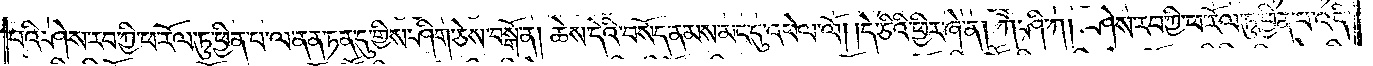པའི་ཤེས་རབ་ཀྱི་ཕ་རོལ་ཏུ་ཕྱིན་པ་ལ་ནན་ཏན་དུ་གྱིས་ཤིག་ཅེས་བསྒོ་ན། ཆེས་དེའི་བསོད་ནམས་མང་དུ་འཕེལ་ལོ། །དེ་ཅིའི་ཕྱིར་ཞེ་ན། ཀཽ་ཤི་ཀ། ཤེས་རབ་ཀྱི་ཕ་རོལ་ཏུ་ཕྱིན་པ་འདི་
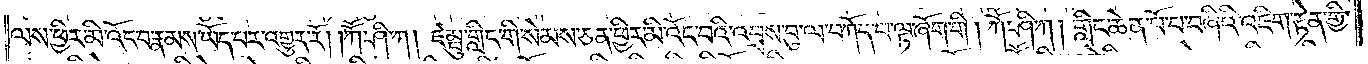ལས་ཕྱིར་མི་འོང་བ་རྣམས་ཡོད་པར་འགྱུར་རོ། །ཀཽ་ཤི་ཀ། ཛམྦུ་གླིང་གི་སེམས་ཅན་ཕྱིར་མི་འོང་བའི་འབྲས་བུ་ལ་བཀོད་པ་ལྟ་ཞོག་གི །ཀཽ་ཤི་ག །གླིང་ཆེན་པོ་པ་བཞིའི་འཇིག་རྟེན་གྱི་
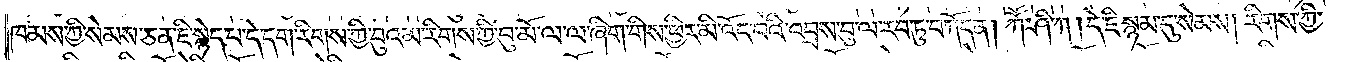ཁམས་ཀྱི་སེམས་ཅན་ཇི་སྙེད་བ་དེ་དག་རིགས་ཀྱི་བུའམ་རིགས་ཀྱི་བུ་མོ་ལ་ལ་ཞིག་གིས་ཕྱིར་མི་འོང་བའི་འབྲས་བུ་ལ་རབ་ཏུ་བཀོད་ན། ཀཽ་ཤི་ཀ། དེ་ཇི་སྙམ་དུ་སེམས། རིགས་ཀྱི་
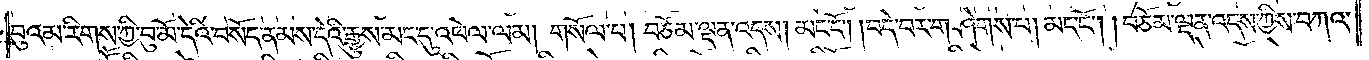བུའམ་རིགས་ཀྱི་བུ་མོ་དེའི་བསོད་ནམས་དེའི་རྒྱུས་མང་དུ་འཕེལ་ལམ། གསོལ་པ། བཅོམ་ལྡན་འདས། མང་ངོ༌། །བདེ་བར་གཤེགས་པ། མང་ངོ༌། །བཅོམ་ལྡན་འདས་ཀྱིས་བཀའ་
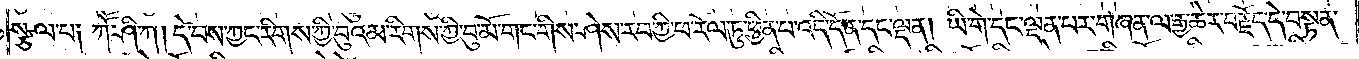སྩལ་པ༑ ཀཽ་ཤི་ཀ། དེ་བས་ཀྱང་རིགས་ཀྱི་བུའམ་རིགས་ཀྱི་བུ་མོ་གང་གིས་ཤེས་རབ་ཀྱི་ཕ་རོལ་ཏུ་ཕྱིན་པ་འདི་དོན་དང་ལྡན། ཡི་གེ་དང་ལྡན་པར་གཞན་ལ་རྒྱ་ཆེར་བརྗོད་དེ་བསྟན་
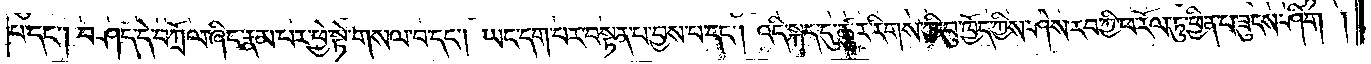པ་དང༌། བཤད་དེ་བཀྲོལ་ཞིང་རྣམ་པར་ཕྱེ་སྟེ་གསལ་བ་དང༌། ཡང་དག་པར་བསྟན་པ་བྱས་པ་དང༌། འདི་སྐད་དུ་ཚུར་རིགས་ཀྱི་བུ་ཁྱོད་ཀྱིས་ཤེས་རབ་ཀྱི་ཕ་རོལ་ཏུ་ཕྱིན་པ་ཟུངས་ཤིག །
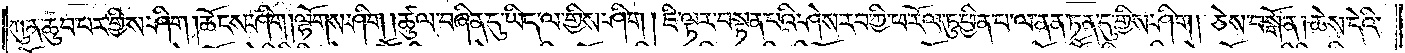ཀུན་ཆུབ་པར་གྱིས་ཤིག །ཆོངས་ཤིག །ལྷོགས་ཤིག །ཚུལ་བཞིན་དུ་ཡིད་ལ་གྱིས་ཤིག །ཇི་ལྟར་བསྟན་པའི་ཤེས་རབ་ཀྱི་ཕ་རོལ་ཏུ་ཕྱིན་པ་ལ་ནན་ཏན་དུ་གྱིས་ཤིག། ཅེས་བསྒོ་མ། ཆེས་དེའི་
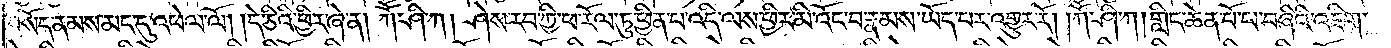བསོད་ནམས་མང་དུ་འཕེལ་ལོ། །དེ་ཅིའི་ཕྱིར་ཞེ་ན། ཀཽ་ཤི་ཀ། ཤེས་རབ་ཀྱི་ཕ་རོལ་ཏུ་ཕྱིན་པ་འདི་ལས་ཕྱིར་མི་འོང་བ་རྣམས་ཡོད་པར་འགྱུར་རོ། །ཀཽ་ཤི་ཀ། གླིང་ཆེན་པོ་པ་བཞིའི་འཇིག་
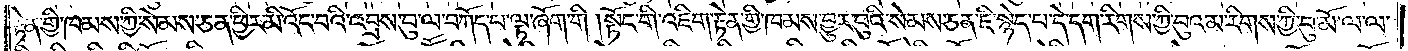རྟེན་གྱི་ཁམས་ཀྱི་སེམས་ཅན་ཕྱིར་མི་འོང་བའི་འབྲས་བུ་ལ་བཀོད་པ་ལྟ་ཞོག་གི །སྟོང་གི་འཇིག་རྟེན་གྱི་ཁམས་བྱུར་བུའི་སེམས་ཅན་ཇི་སྙེད་པ་དེ་དག་རིགས་ཀྱི་བུའམ་རིགས་ཀྱི་བུ་མོ་ལ་ལ་
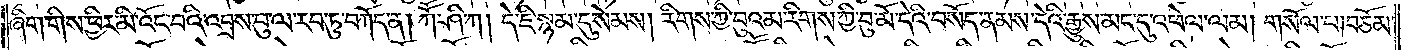ཞིག་གིས་ཕྱིར་མི་འོང་བའི་འབྲས་བུ་ལ་རབ་ཏུ་བཀོད་ན། ཀཽ་ཤི་ཀ །དེ་ཇི་སྙམ་དུ་སེམས། རིགས་ཀྱི་བུའམ་རིགས་ཀྱི་བུ་མོ་དེའི་བསོད་ནམས་དེའི་རྒྱུས་མང་དུ་འཕེལ་ལམ། གསོལ་པ། བཅོམ་
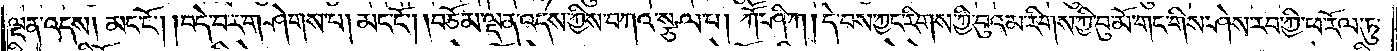ལྡན་འདས། མང་ངོ༌། །བདེ་བར་གཤེགས་པ། མང་ངོ༌། །བཅོམ་ལྡན་འདས་ཀྱིས་བཀའ་སྩལ་པ། ཀཽ་ཤི་ཀ། དེ་བས་ཀྱང་རིགས་ཀྱི་བུའམ་རིགས་ཀྱི་བུ་མོ་གང་གིས་ཤེས་རབ་ཀྱི་ཕ་རོལ་ཏུ་
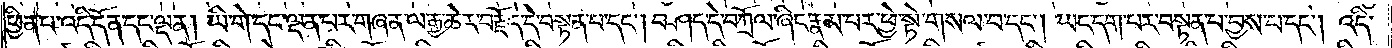ཕྱིན་པ་འདི་དོན་དང་ལྡན། ཡི་གེ་དང་ལྡན་པར་གཞན་ལ་རྒྱ་ཆེར་བརྗོད་དེ་བསྟན་པ་དང༌། བཤད་དེ་བཀྲོལ་ཞིང་རྣམ་པར་ཕྱེ་སྟེ་གསལ་བ་དང༌། ཡང་དག་པར་བསྟན་པ་བྱས་པ་དང༌། འདི་
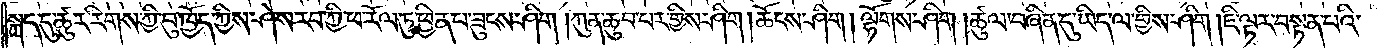སྐད་དུ་ཚུར་རིགས་ཀྱི་བུ་ཁྱོད་ཀྱིས་ཤེས་རབ་ཀྱི་ཕ་རོལ་ཏུ་ཕྱིན་བ་ཟུངས་ཤིག །ཀུན་ཆུབ་པར་གྱིས་ཤིག །ཆོངས་ཤིག །ལྷོགས་ཤིག། ཚུལ་བཞིན་དུ་ཡིད་ལ་གྱིས་ཤིག །ཇི་ལྟར་བསྟན་པའི་
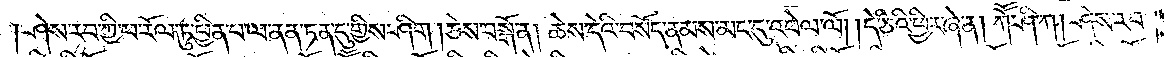ཤེས་རབ་ཀྱི་ཕ་རོལ་ཏུ་ཕྱིན་པ་ལ་ནན་ཏན་དུ་གྱིས་ཤིག། ཅེས་བསྒོ་ན། ཆེས་དེའི་བསོད་ནམས་མང་དུ་འཕེལ་ལོ། །དེ་ཅིའི་ཕྱིར་ཞེ་ན། ཀཽ་ཤི་ཀ། ཤེས་རབ་
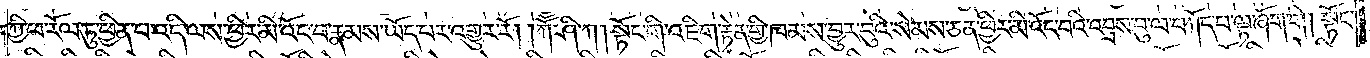ཀྱི་ཕ་རོལ་ཏུ་ཕྱིན་པ་འདི་ལས་ཕྱིར་མི་འོང་བ་རྣམས་ཡོད་པར་འགྱུར་རོ། །ཀཽ་ཤི་ཀ། སྟོང་གི་འཇིག་རྟེན་གྱི་ཁམས་བྱུར་བུའི་སེམས་ཅན་ཕྱིར་མི་འོང་བའི་འབྲས་བུ་ལ་བཀོད་པ་ལྟ་ཞོག་གི །སྟོང་
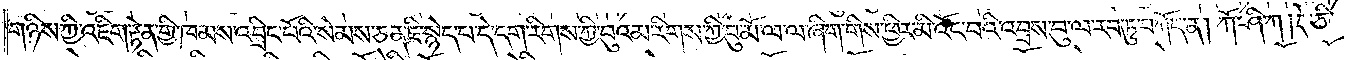གཉིས་ཀྱི་འཇིག་རྟེན་གྱི་ཁམས་འབྲིང་པོའི་སེམས་ཅན་ཇི་སྙེད་པ་དེ་དག་རིགས་ཀྱི་བུའམ་རིགས་ཀྱི་བུ་མོ་ལ་ལ་ཞིག་གིས་ཕྱིར་མི་འོང་བའི་འབྲས་བུ་ལ་རབ་ཏུ་བཀོད་ན། ཀོ་ཤི་ཀ། དེ་ཇི་
